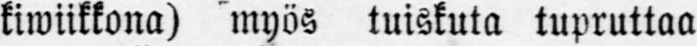kiwiikkona) myös tuiskuta tupruttaa
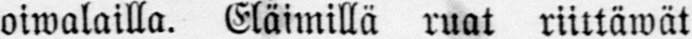oiwalailla. Eläimillä ruat riittäwät
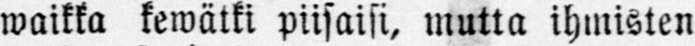waikka kewätki piisaisi, mutta ihmisten
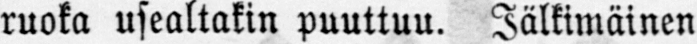ruoka usealtakin puuttuu. Jälkimäinen
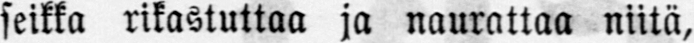seikka rikastuttaa ja naurattaa niitä,
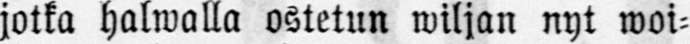jotka hawalla ostetun wiljan nyt woi-
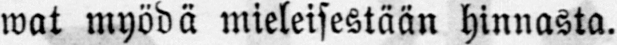wat myödä mieleisestään hinnasta.
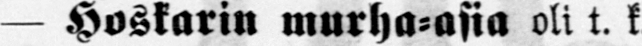— Hoskarin murha-asia oli t. k
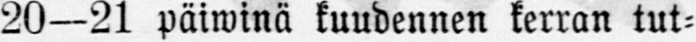20—21 päiwinä kuudennen kerran tut-
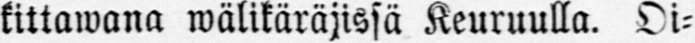kittawana wälikäräjissä Keuruulla. Oi-
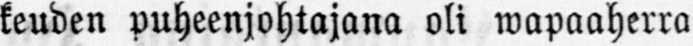keuden puheenjohtajana oli wapaaherra
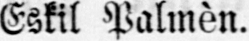Eskil Palmèn.
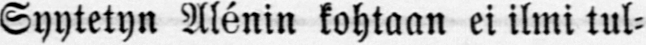Syytetyn Alénin kohtaan ei ilmi tul-
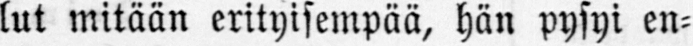lut mitään erityisempää, hän pysyi en-
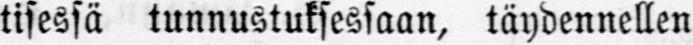tisessä tunnustuksessaan, täydennellen
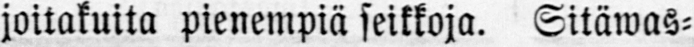joitakuita pienempiä seikkoja. Sitäwas-
